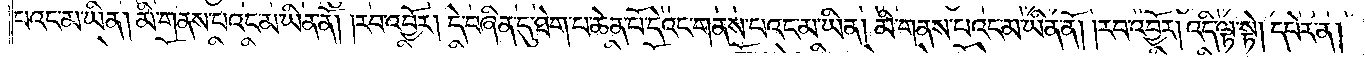པའང་མ་ཡིན། མི་གནས་པའང་མ་ཡིན་ནོ། །རབ་འབྱོར། དེ་བཞིན་དུ་ཐེག་པ་ཆེན་པོ་དེའང་གནས་པའང་མ་ཡིན། མི་གནས་པའང་མ་ཡིན་ནོ། །རབ་འབྱོར། འདི་ལྟ་སྟེ། དཔེར་ན།
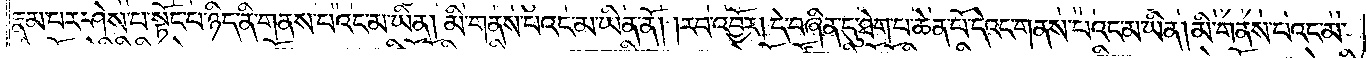རྣམ་པར་ཤེས་པ་སྟོང་པ་ཉིད་ནི་གནས་པའང་མ་ཡིན། མི་གནས་པའང་མ་ཡིན་ནོ། །རབ་འབྱོར། དེ་བཞིན་དུ་ཐེག་པ་ཆེན་པོ་དེའང་གནས་པའང་མ་ཡིན། མི་གནས་པའང་མ་
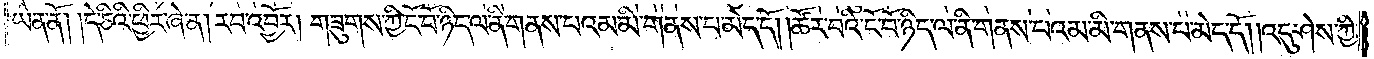ཡིན་ནོ། །དེ་ཅིའི་ཕྱིར་ཞེ་ན། རབ་འབྱོར། གཟུགས་ཀྱི་ངོ་བོ་ཉིད་ལ་ནི་གནས་པའམ་མི་གནས་པ་མེད་དོ། །ཚོར་བའི་ངོ་བོ་ཉིད་ལ་ནི་གནས་པའམ་མི་གནས་པ་མེད་དོ། །འདུ་ཤེས་ཀྱི་
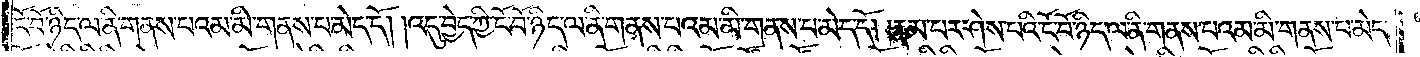ངོ་བོ་ཉིད་ལ་ནི་གནས་པའམ་མི་གནས་པ་མེད་དོ། །འདུ་བྱེད་ཀྱི་ངོ་བོ་ཉིད་ལ་ནི་གནས་པའམ་མི་གནས་པ་མེད་དོ། །རྣམ་པར་ཤེས་པའི་ངོ་བོ་ཉིད་ལ་ནི་གནས་པའམ་མི་གནས་པ་མེད་
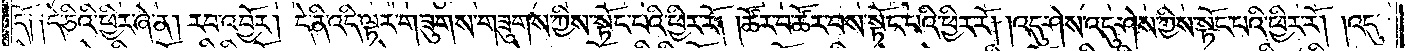དོ། །དེ་ཅིའི་ཕྱིར་ཞེ་ན། རབ་འབྱོར། དེ་ནི་འདི་ལྟར་གཟུགས་གཟུགས་ཀྱིས་སྟོང་པའི་ཕྱིར་རོ། །ཚོར་བ་ཚོར་བས་སྟོང་པའི་ཕྱིར་རོ། །འདུ་ཤེས་འདུ་ཤེས་ཀྱིས་སྟོང་པའི་ཕྱིར་རོ། །འདུ་
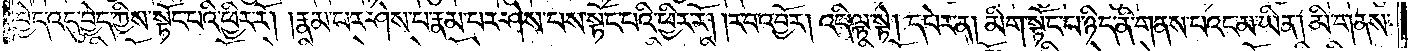བྱེད་འདུ་བྱེད་ཀྱིས་སྟོང་པའི་ཕྱིར་རོ། །རྣམ་པར་ཤེས་པ་རྣམ་པར་ཤེས་པས་སྟོང་པའི་ཕྱིར་རོ། །རབ་འབྱོར། འདི་ལྟ་སྟེ། དཔེར་ན། མིག་སྟོང་པ་ཉིད་ནི་གནས་པའང་མ་ཡིན། མི་གནས་
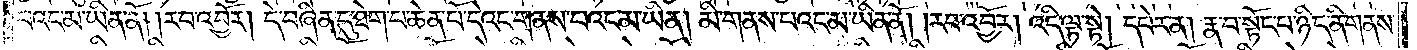པའང་མ་ཡིན་ནོ། །རབ་འབྱོར། དེ་བཞིན་དུ་ཐེག་པ་ཆེན་པོ་དེའང་གནས་པའང་མ་ཡིན། མི་གནས་པའང་མ་ཡིན་ནོ། །རབ་འབྱོར། འདི་ལྟ་སྟེ། དཔེར་ན། རྣ་བ་སྟོང་པ་ཉིད་ནི་གནས་
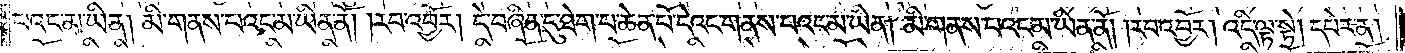པའང་མ་ཡིན། མི་གནས་པའང་མ་ཡིན་ནོ། །རབ་འབྱོར། དེ་བཞིན་དུ་ཐེག་པ་ཆེན་པོ་དེའང་གནས་པའང་མ་ཡིན། མི་གནས་པའང་མ་ཡིན་ནོ། །རབ་འབྱོར། འདི་ལྟ་སྟེ། དཔེར་ན།
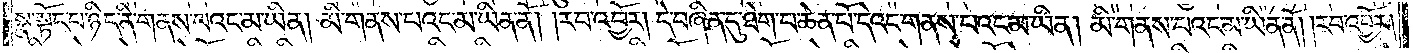སྣ་སྟོང་པ་ཉིད་ནི་གནས་པའང་མ་ཡིན། མི་གནས་པའང་མ་ཡིན་ནོ། །རབ་འབྱོར། དེ་བཞིན་དུ་ཐེག་པ་ཆེན་པོ་དེའང་གནས་པའང་མ་ཡིན། མི་གནས་པའང་མ་ཡིན་ནོ། །རབ་འབྱོར།
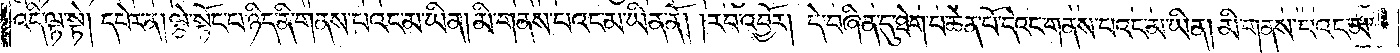འདི་ལྟ་སྟེ། དཔེར་ན། ལྕེ་སྟོང་པ་ཉིད་ནི་གནས་པའང་མ་ཡིན། མི་གནས་པའང་མ་ཡིན་ནོ། །རབ་འབྱོར། དེ་བཞིན་དུ་ཐེག་པ་ཆེན་པོ་དེའང་གནས་པའང་མ་ཡིན། མི་གནས་པའང་མ་
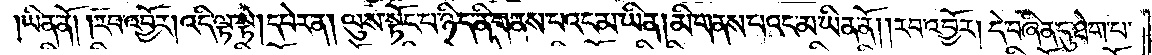ཡིན་ནོ། །རབ་འབྱོར། འདི་ལྟ་སྟེ། དཔེར་ན། ལུས་སྟོང་པ་ཉིད་ནི་གནས་པའང་མ་ཡིན། མི་གནས་པའང་མ་ཡིན་ནོ། །རབ་འབྱོར། དེ་བཞིན་དུ་ཐེག་པ་
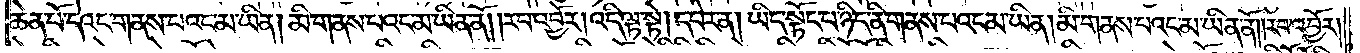ཆེན་པོ་དེའང་གནས་པའང་མ་ཡིན། མི་གནས་པའང་མ་ཡིན་ནོ། །རབ་འབྱོར། འདི་ལྟ་སྟེ། དཔེར་ན། ཡིད་སྟོང་པ་ཉིད་ནི་གནས་པའང་མ་ཡིན། མི་གནས་པའང་མ་ཡིན་ནོ། །རབ་འབྱོར།
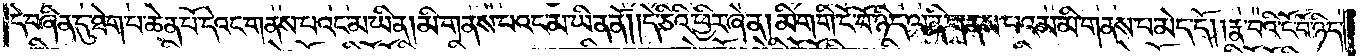དེ་བཞིན་དུ་ཐེག་པ་ཆེན་པོ་དེའང་གནས་པའང་མ་ཡིན། མི་གནས་པའང་མ་ཡིན་ནོ། །དེ་ཅིའི་ཕྱིར་ཞེ་ན། མིག་གི་ངོ་བོ་ཉིད་ལ་ནི་གནས་པའམ་མི་གནས་པ་མེད་དོ། །རྣ་བའི་ངོ་བོ་ཉིད་
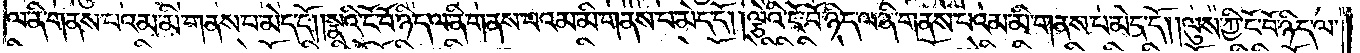ལ་ནི་གནས་པའམ་མི་གནས་པ་མེད་དོ། །སྣའི་ངོ་བོ་ཉིད་ལ་ནི་གནས་པའམ་མི་གནས་པ་མེད་དོ། །ལྕེའི་ངོ་བོ་ཉིད་ལ་ནི་གནས་པའམ་མི་གནས་པ་མེད་དོ། །ལུས་ཀྱི་ངོ་བོ་ཉིད་ལ་
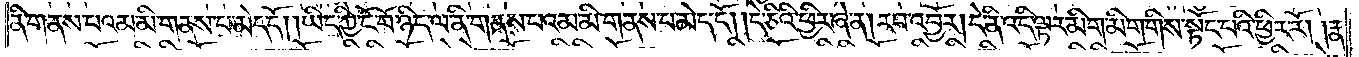ནི་གནས་པའམ་མི་གནས་པ་མེད་དོ། །ཡིད་ཀྱི་ངོ་བོ་ཉིད་ལ་ནི་གནས་པའམ་མི་གནས་པ་མེད་དོ། །དེ་ཅིའི་ཕྱིར་ཞེ་ན། རབ་འབྱོར། དེ་ནི་འདི་ལྟར་མིག་མིག་གིས་སྟོང་པའི་ཕྱིར་རོ། །རྣ་
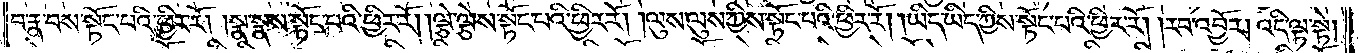བ་རྣ་བས་སྟོང་པའི་ཕྱིར་རོ། །སྣ་སྣས་སྟོང་པའི་ཕྱིར་རོ། །ལྕེ་ལྕེས་སྟོང་པའི་ཕྱིར་རོ། །ལུས་ལུས་ཀྱིས་སྟོང་པའི་ཕྱིར་རོ། །ཡིད་ཡིད་ཀྱིས་སྟོང་པའི་ཕྱིར་རོ། །རབ་འབྱོར། འདི་ལྟ་སྟེ།
